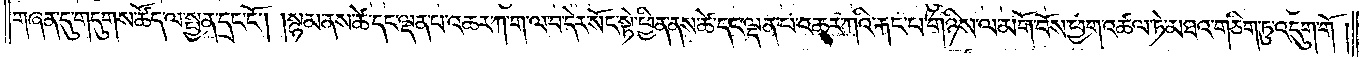གཞན་དུ་གདུགས་ཚོད་ལ་སྤྱན་དྲང་ངོ༌། །སྙམ་ནས་ཚེ་དང་ལྡན་པ་འཆར་ཀས་ག་ལ་བ་དེར་སོང་སྟེ་ཕྱིན་ནས་ཚེ་དང་ལྡན་པ་འཆར་ཀའི་རྐང་པ་གཉིས་ལ་མགོ་བོས་ཕྱག་འཚལ་ཏེ་མཐའ་གཅིག་ཏུ་འདུག་གོ །
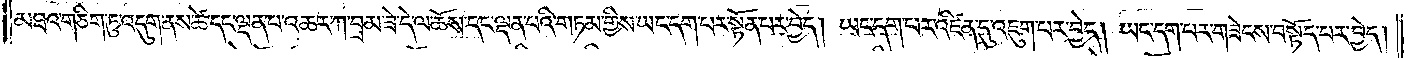མཐའ་གཅིག་ཏུ་འདུག་ནས་ཚེ་དང་ལྡན་པ་འཆར་ཀ་བྲམ་ཟེ་དེ་ལ་ཆོས་དང་ལྡན་པའི་གཏམ་གྱིས་ཡང་དག་པར་སྟོན་པར་བྱེད། ཡང་དག་པར་འཛིན་དུ་འཇུག་པར་བྱེད། ཡང་དག་པར་གཟེངས་བསྟོད་པར་བྱེད།
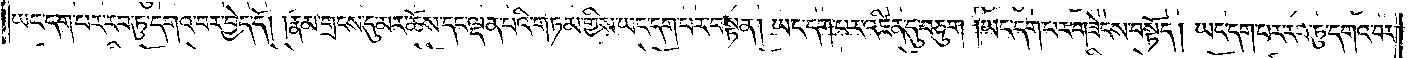ཡང་པར་རབ་ཏུ་དགའ་བར་བྱེད་དོ། །རྣམ་གྲངས་དུ་མར་ཆོས་དང་ལྡན་པའི་གཏམ་གྱིས་ཡང་དག་པར་བསྟན། ཡང་དག་པར་འཛིན་དུ་བཅུག །ཡང་དག་པར་གཟེངས་བསྟོད། ཡང་དག་པར་རབ་ཏུ་དགའ་བར་
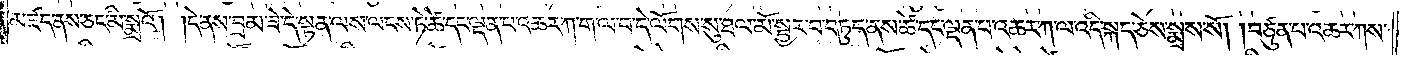མཛད་ནས་ཅང་མི་སྨྲའོ། །དེ་ནས་བྲམ་ཟེ་དེ་སྟན་ལས་ལངས་ཏེ་ཚེ་དང་ལྡན་པ་འཆར་ཀ་ག་ལ་བ་དེ་ལོགས་སུ་ཐལ་མོ་སྦྱར་བ་བཏུད་ནས་ཚེ་དང་ལྡན་པ་འཆར་ཀ་ལ་འདི་སྐད་ཅེས་སྨྲས་སོ། །བཙུན་པ་འཆར་ཀས་
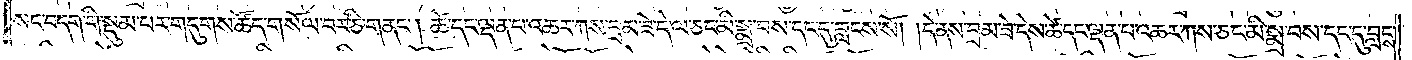སང་བདག་གི་སྡུམ་པར་གདུགས་ཚོད་གསོལ་བར་ཅི་གནང༌། ཚེ་དང་ལྡན་པ་འཆར་ཀས་བྲམ་ཟེ་དེ་ལ་ཅང་མི་སྨྲ་བས་དང་དུ་བླངས་སོ། །དེ་ནས་བྲམ་ཟེ་དེས་ཚེ་དང་ལྡན་པ་འཆར་ཀས་ཅང་མི་སྨྲ་བས་དང་དུ་བླངས་
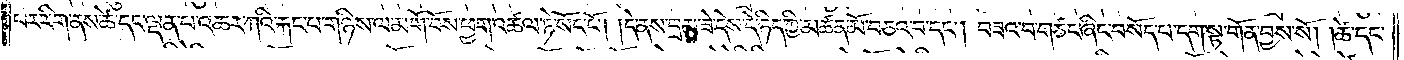པར་རིག་ནས་ཚེ་དང་ལྡན་པ་འཆར་ཀའི་རྐང་པ་གཉིས་ལ་མགོ་བོས་ཕྱག་འཚལ་ཏེ་སོང་ངོ༌། །དེ་ནས་བྲམ་ཟེ་དེས་དེ་ཉིད་ཀྱི་མཚན་མོ་བཅའ་བ་དང༌། བཟའ་བ་གཙང་ཞིང་བསོད་པ་དག་སྟ་གོན་བྱས་སོ། །ཚེ་དང་
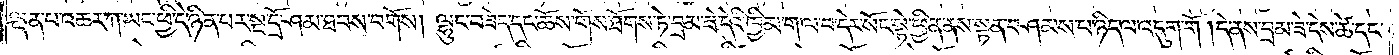ལྡན་པ་འཆར་ཀ་ཡང་ཕྱི་དེ་ཉིན་པར་སྔ་དྲོ་ཤམ་ཐབས་བགོས། ལྷུང་བཟེད་དང་ཆོས་གོས་ཐོགས་ཏེ་བྲམ་ཟེ་དེའི་ཁྱིམ་ག་ལ་བ་དེར་སོང་སྟེ་ཕྱིན་ནས་སྟན་བཤམས་པ་ཉིད་ལ་འདུག་གོ །དེ་ནས་བྲམ་ཟེ་དེས་ཚེ་དང་
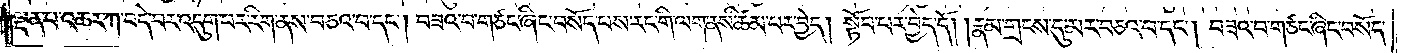ལྡན་པ་འཆར་ཀ་བདེ་བར་འདུག་པར་རིག་ནས་བཅའ་བ་དང༌། བཟའ་བ་གཙང་ཞིང་བསོད་པས་རང་གི་ལག་ནས་ཚིམ་པར་བྱེད། སྟོབ་པར་བྱེད་དོ། །རྣམ་གྲངས་དུ་མར་བཅའ་བ་དང༌། བཟའ་བ་གཙང་ཞིང་བསོད་
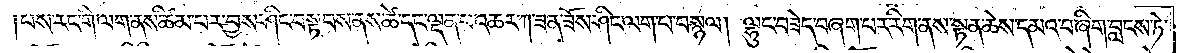པས་རང་གི་ལག་ནས་ཚིམ་པར་བྱས་ཤིང་བསྟབས་ནས་ཚེ་དང་ལྡན་པ་འཆར་ཀ་ཟན་ཟོས་ཤིང་ལག་པ་བསྙལ། ལྷུང་བཟེད་བཞག་པར་རིག་ནས་སྟན་ཆེས་དམའ་བ་ཞིག་བླངས་ཏེ་
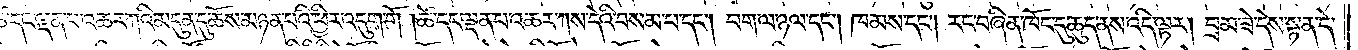དང་ལྡན་པ་འཆར་ཀའི་མདུན་དུ་ཆོས་མཉན་པའི་ཕྱིར་འདུག་གོ །ཚེ་དང་ལྡན་པ་འཆར་ཀས་དེའི་བསམ་པ་དང༌། བག་ལ་ཉལ་དང༌། ཁམས་དང༌། རང་བཞིན་ཁོང་དུ་ཆུད་ནས་འདི་ལྟར། བྲམ་ཟེ་དེས་སྟན་དེ་
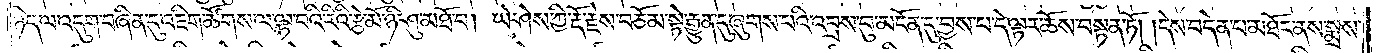ཉིད་ལ་འདུག་བཞིན་དུ་འཇིག་ཚོགས་ལ་ལྟ་བའི་རིའི་རྩེ་མོ་ཉི་ཤུ་མཐོ་བ། ཡེ་ཤེས་ཀྱི་རྡོ་རྗེས་བཅོམ་སྟེ་རྒྱུན་དུ་ཞུགས་པའི་འབྲས་བུ་མངོན་དུ་བྱས་པ་དེ་ལྟར་ཆོས་བསྟན་ཏོ། །དེས་བདེན་པ་མཐོང་ནས་སྨྲས་
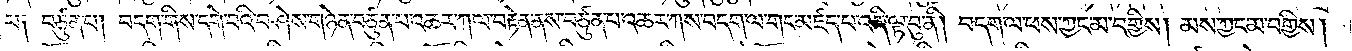པ༑ བཙུན་པ། བདག་གིས་དགེ་བའི་བཤེས་གཉེན་བཙུན་པ་འཆར་ཀ་ལ་བརྟེན་ནས་བཙུན་པ་འཆར་ཀས་བདག་ལ་གང་མཛད་པ་འདི་ལྟ་བུ་ནི། བདག་ལ་ཕས་ཀྱང་མ་བགྱིས། མས་ཀྱང་མ་བགྱིས།
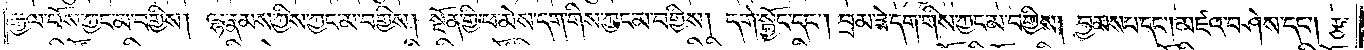རྒྱལ་པོས་ཀྱང་མ་བགྱིས། ལྷ་རྣམས་ཀྱིས་ཀྱང་མ་བགྱིས། སྔོན་གྱི་ཕ་མེས་དག་གིས་ཀྱང་མ་བགྱིས། དགེ་སྦྱོང་དང༌། བྲམ་ཟེ་དག་གིས་ཀྱང་མ་བགྱིས། བྱམས་པ་དང༌། མཛའ་བཤེས་དང༌། རྩ་
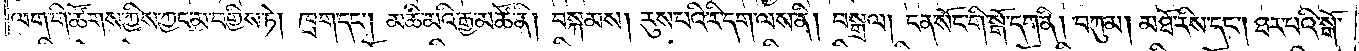ལག་གི་ཚོགས་ཀྱིས་ཀྱང་མ་བགྱིས་ཏེ། ཁྲག་དང༌། མཆི་མའི་རྒྱ་མཚོ་ནི། བསྐམས། རུས་པའི་རི་དག་ལས་ནི། བསྒྲལ། ངན་སོང་གི་སྒོ་དག་ནི། བཀུམ། མཐོ་རིས་དང༌། ཐར་པའི་སྒོ་
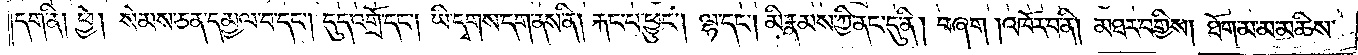དག་ནི། ཕྱེ། སེམས་ཅན་དམྱལ་བ་དང༌། དུད་འགྲོ་དང༌། ཡི་དྭགས་དག་ནས་ནི། རྐང་པ་ཕྱུང༌། ལྷ་དང༌། མི་རྣམས་ཀྱི་ནང་དུ་ནི། བཞག །འཁོར་བ་ནི། མཐར་བགྱིས། ཐོག་མ་མ་མཆིས་
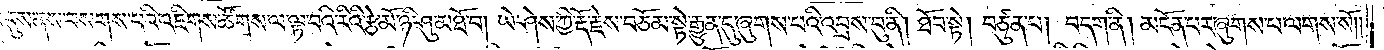དུས་ནས་བསགས་པའི་འཇིགས་ཚོགས་ལ་ལྟ་བའི་རིའི་རྩེ་མོ་ཉི་ཤུ་མཐོ་བ། ཡེ་ཤེས་ཀྱི་རྡོ་རྗེས་བཅོམ་སྟེ་རྒྱུན་དུ་ཞུགས་པའི་འབྲས་བུ་ནི། ཐོབ་སྟེ། བཙུན་པ། བདག་ནི། མངོན་པར་ཞུགས་པ་ལགས་སོ༎
